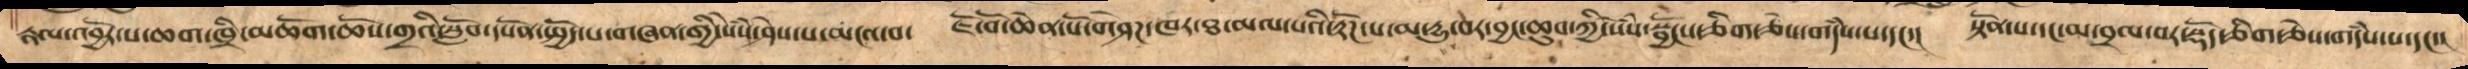རྣལ་འབྱོར་པ་ཆག་ཁྲི་མཆོག་ཆོས་གྲའི་སློབ་དཔོན་སྤྱོད་པ་གཞན་གྱི་སེསཾ་ཤེས་པ་མངའ་བ།  ཇོ་བོ་ཆེན་པོ་གཤེཌ་ཁར་ཐ་མལ་པའི་རྟོཌ་པ་མ་དྱུ་བར་བྱང་ཆུབ་ཀྱི་སེསཾ་སྦྱོངས་ཅིག་ཅེས་གདཾས་པ་དང་།  སྟོན་པ་དང་མ་བྲལ་བར་སྡོད་ཅིག་ཅེས་གདཾས་པ་དང་།
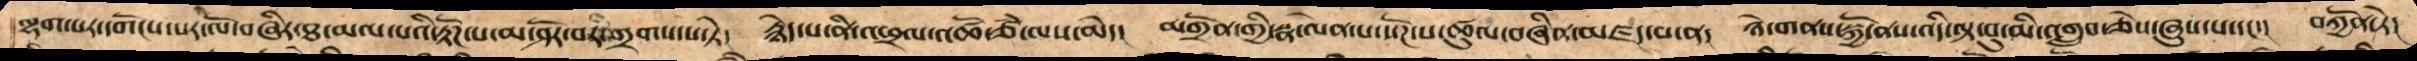ལྷག་པར་དགོངས་པར་ལོ་བཞིར་ཐ་མལ་པའི་རྟོཌ་པ་མ་ཤོར་པར་གྲགས་པ་ཏེ།     རྙེད་པ་ནི་འཕྲལ་འཚོ་ཙཾ་ལས་མེད།    མགྲོན་གྱི་སྣ་ལེན་པ་སོཌ་པ་ཚུལ་བཞིན་མཛད་པ་ན།    ཉེ་གནས་སྐྱོ་ནས་འདི་ལྟ་བུ་མི་འགྲུབ་ཅེས་ཞུས་པ་དང་།   བཀྱོན་ཏེ།
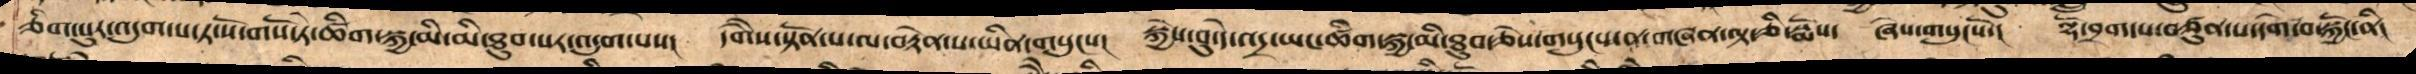ཅིག་པུར་འདུག་པ་ཏ་སོ་གསོ་ཏེ་ཚིག་སྐྱ་མི་མི་ཐུབ་པར་འདུག་པས།    དགེཻས་སྟོན་པ་ལ་བརྟེན་པ་ཡིན་གསུངས།    སྐྱེས་བུ་དེ་འདྲ་ཡང་ཚིག་སྐྱ་མི་ཐུབ་ཅེས་གསུངས་ན་གཞན་ལྟ་ཅི་སྨོས་    ཞེས་གསུངསོ་།    ལྷོ་བྲག་པ་བཙུན་པ་དགེ་བ་སྐྱོང་ནི།
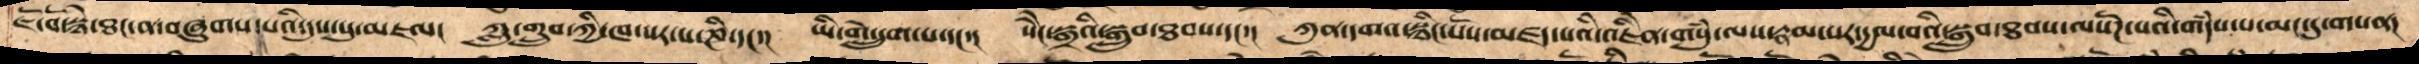ཇོ་བོ་སྙེ་ཐང་ན་བཞུགས་པའི་དུས་སུ་མཇལ།    ཀླུ་གྲུབ་ཀྱི་ཁ་སར་པ་ཎི་དང་།    ཡི་གེ་དྲུག་པ་དང་།  སེངེ་སྒྲའི་སྒྲུབ་ཐབས་དང་།    ཀུན་དགའ་སྙིང་པོས་མཛད་པའིའཇིནེ་གསུཾ་ལས་རྣམ་པར་དྱལ་བའི་སྒྲུབ་ཐབས་ལསོཌ་པའི་གདཾས་པ་མང་དུ་གསན།
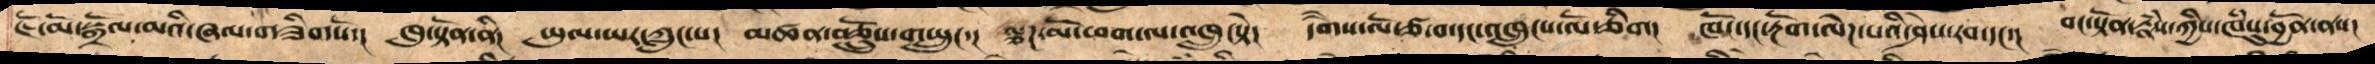ཇོ་མོ་སྒྲོལ་མའི་ཞལ་གཟིགསོ་།     ཁུ་སྟོན་ནི།    ཡུལ་ཡར་ཀླུང་པ།   མཚན་བཅྲོུས་གཡྲུང་།   ལྕཌ་མོ་ཕག་ལ་སྐུ་འཁྲུང་སྟེ།   དགཻས་ལོ་ཙ་བ་དང་འཁྲུངས་ལོ་གཅིག།    ཁོང་དང་རྔོག་ལེཌ་པའི་ཤེས་རབ་དང་།   བང་སྟོན་རྣཾས་ཀྱིས་ཁཾསུ་བྱོན་ནས།
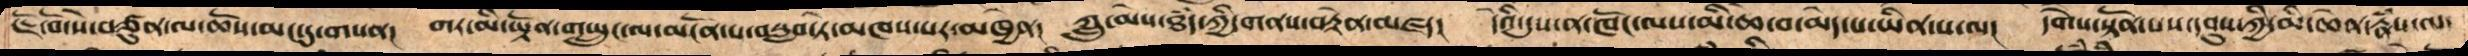ཇོ་བོ་སེ་བཙུན་ལ་ཆོས་མང་དུ་གསན།   གར་མི་ཡྟོན་གཡྲུང་ལ་མངོན་པ་བསླབ་ཏེ་མཁས་པར་མཁྱེན།    ཀླུ་མེས་ཐཾད་ཀྱི་གནས་བརྟེན་མཛད།   དེའི་དུས་ན་ཁོང་ལས་མི་ཆེ་བ་མེད་པ་ཡིན་པ་ལ།    དགཻས་སྟོན་པས་དབུས་ཀྱི་མི་ཆེན་རྣཾས་ལ་
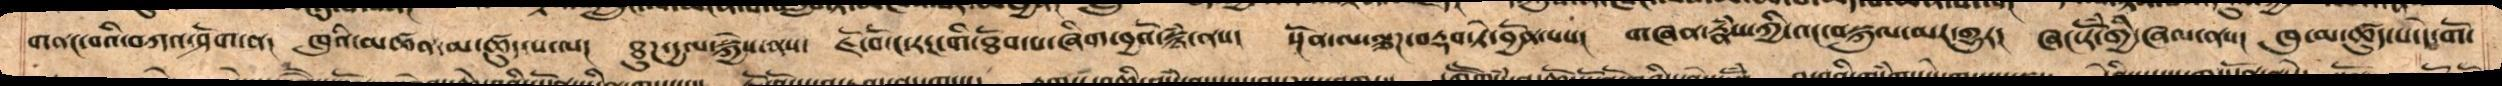གནང་བའི་བཀའ་ཤོག་ན།  ཁུའི་མཚན་མ་ཚུད་པ་ལ། ཐུཌ་དྱལ་སྐྱེས་ནས། ཇོ་བོ་ང་རང་གི་ཐོབ་པ་ཞིག་བྱའོ་སྙཾ་ནས།  སྔོན་ལ་ལྕཌ་བརྡབ་སྟེ་བྱོན་པས། གཞན་རྣཾས་ཀྱི་འང་བསྐུལ་མར་གྱུར། ཞང་རོཾ་གྱི་ཞལ་ནས། ཁུ་མ་ཚུད་པ་དེ་གོ་
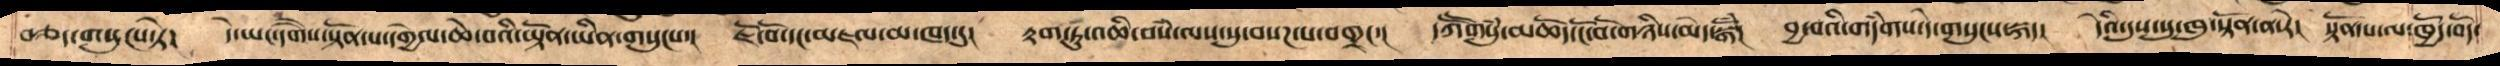བཅད་གསུངས་ཏེ།    དེ་ཡང་དགེཻས་སྟོན་པ་དགྱེལ་ཆེ་བའི་ཡྟོན་ཡིན་གསུངས་།    ཇོ་བོ་དང་མཇལ་མ་ཁད་དུ།    རྟག་ཏུ་འཆི་བསཾ་ལས་སུ་བསཌ་པ་བགྲང་།    དཀོགོསུཾ་མཆོད་ངོ་བོ་གཉིས་མེད་སྒོཾ།    བྱ་བའི་གདཾགས་དེ་གསུངས་སྐད།   དེའི་དུས་སུ་ཁུ་སྟོན་ན་རེ།    སྟོན་པ་ལ་ཁྱོད་བོད་
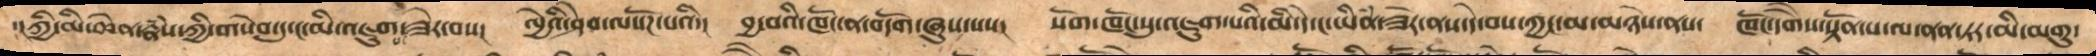་།ཀྱི་མི་ཆེན་རྣཾས་ཀྱིགསེབ་ཏུ་ང་མི་འཇུག་པ་ཟེར་བས།   ལྱེའི་ཤེབ་ལསོཌ་པའི་།   བྱ་བའི་ཁོང་ན་བདོག་ཞུས་པས།   སོག་ཁོངསུ་འཇུག་པའི་མི་དེ་ང་ཡིཾན་ཟེར་ནས་དེ་བས་ཀྱང་མ་མཉེས་ནས་   ཁོང་དགཻས་སྟོན་པ་ལ་ནན་ཏར་མི་མགུ་
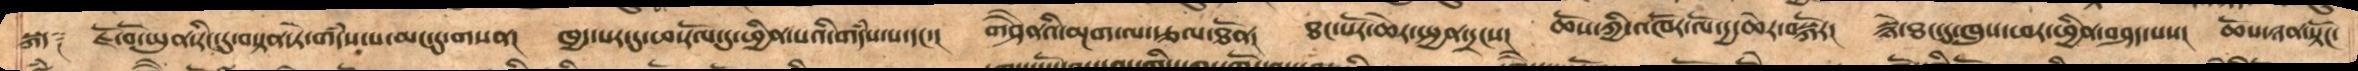སྐད༑    ཇོ་བོ་ཡུན་རིང་དུ་བསྟན་ཏེ་གདཾས་པ་མང་དུ་གསན།   ཁྱད་པར་དུ་ཕ་རོལ་ཏུ་ཕྱིན་པའི་གདཾས་པ་དང་།   གཤཻནའི་མྔག་ལ་རྩལ་ཐོན།   ཐང་པོར་ཆེར་སྤྱན་དྲངས།   ཆོས་ཀྱི་འཁོར་ལོ་དྱ་ཆེར་བསྐོར།   སྙེ་ཐང་དུ་ཁུས་ཕར་ཕྱིན་བཤད་པས།  ཆོས་ཉན་སྟོང་
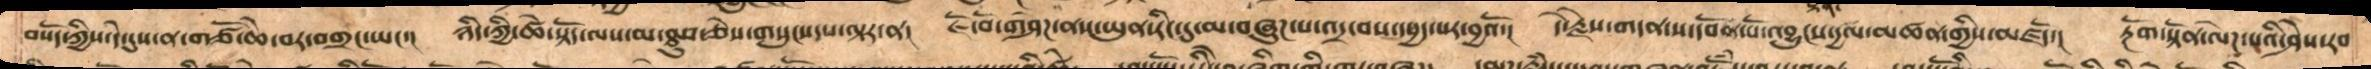བསོད་ཀྱིས་དེ་དུས་ན་གཙོ་ཆེ་བར་བགྲང་ཡང་།    ཉིད་ཀྱི་ཚེ་སྟོད་ལས་མ་ཐུབ་ཅེས་གསུངས་པ་ལྟར་ན།    ཇོ་བོ་གཤེཌ་ནས་ཡུན་རིང་དུ་མ་བཞུཌ་པ་འདྲ་བས་དཔྱད་པར་བྱའོ།    དེ་རྗེས་གདན་ས་དབོན་པོ་འབྱུངས་དྱལ་མཚན་གྱིས་མཛདོ་།    རྔོག་སྟོན་ལེཌ་པའི་ཤེས་རབ་
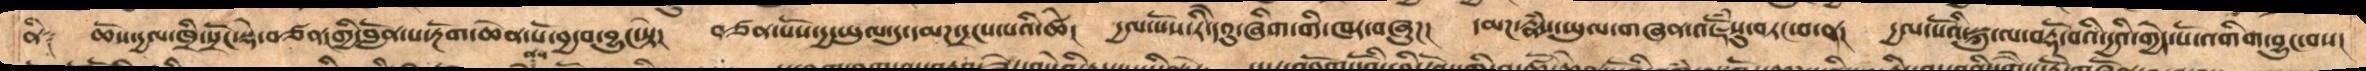ནི༑ ཆོས་དྱལ་ཁྲི་སྲོང་སྡེ་བཙན་གྱི་བློན་པོ་རྔོག་ཆེན་པོ་བྱ་བ་བྱུང་སྟེ། བཙན་པོས་དྱ་ཡུལ་དུ་དམཌ་དྲངས་པའི་ཚེ། དྱལ་པོས་རིེ་དའུ་ཞིག་གི་ཁར་བཞུཌ། དམཌ་རྣཾས་ཡུལ་གཞན་འཇོཾསུ་བཏང་བ་ན། དྱལ་པོའི་སྐུ་ལ་བརྡོ་བའི་དྱའི་གྱེད་པོ་འགིག་བྱུང་བས།
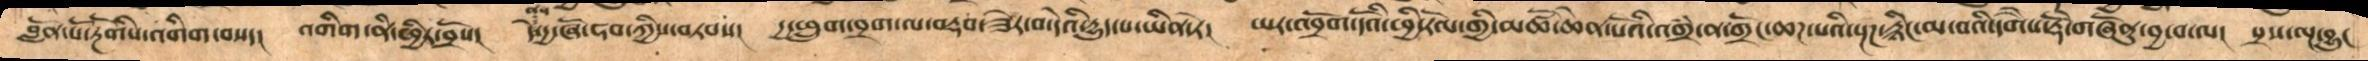བློན་པོ་རྔོགིས་འགིག་བསད།  འགིག་ནི་ཕྱིར་བྲོས།  དེ་ནས་དྱ་ཞོ་ཧབ་ཀྱིས་བཏབས།    དྱ་ཕྲུག་བྲག་ལ་བརྡབ་ཟེར་བ་དེའི་དྱུད་པ་ཡིན་ཏེ།    ཡར་འབྲོག་དོའི་ཕྱི་རོལ་གྱི་མཚོ་ཆེན་པོའི་འགྲཾ་ན་གྲོང་ཆཌ་པའི་སྔཌ་རྙིང་མ་བའི་དགཻས་རྡོེ་གཞོནུ་བྱ་བ་ལ།     སྲས་ལྔ་བྱུང་
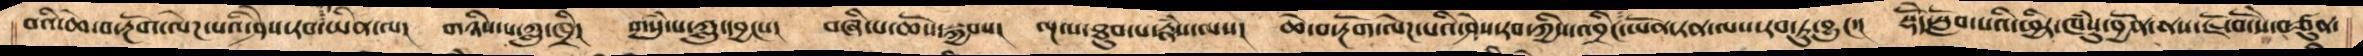བའི་ཆེ་བ་རྔོག་ལེཌ་པའི་ཤེས་རབ་ཡིན་ལ།    གཉིས་པ་ཀླུ་ཁྲི།   གསུཾ་པ་ཀླུ་དབྱངས་།    བཞི་པ་ཆོས་སྐྱབས།    ལྔ་པ་ཐུབ་པ་རྣཾས་ལས།   ཆེ་བ་རྔོག་ལེཌ་པའི་ཤེས་རབ་ཀྱིས་འབྲིང་ཡོན་ཏན་ལས་རབ་ཏུ་བྱུང་།    སྡེོད་སློབ་པའི་ཕྱིར་ཁཾསུ་བྱོན་ནས་ཇོ་བོ་སེ་བཙུན་
